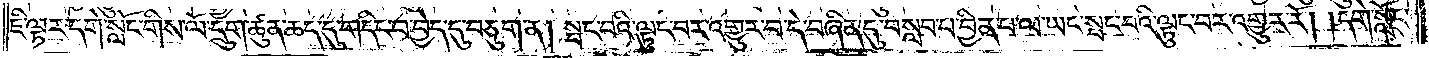ཇི་ལྟར་དགེ་སློང་གིས་ལོ་དྲུག་ཚུན་ཆད་དུ་གདིང་བ་བྱེད་དུ་བཅུག་ན། སྤང་བའི་ལྟུང་བར་འགྱུར་བ་དེ་བཞིན་དུ་བསླབ་པ་བྱིན་པ་ལ་ཡང་སྤང་བའི་ལྟུང་བར་འགྱུར་རོ། །དགེ་སློང་
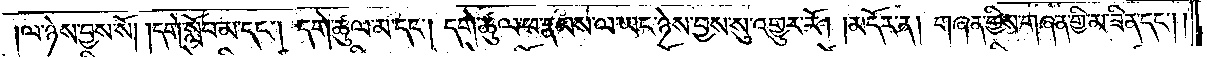།ལ་ཉེས་བྱས་སོ། །དགེ་སློབ་མ་དང༌། དགེ་ཚུལ་མ་དང༌། དགེ་ཚུལ་ཕ་རྣམས་ལ་ཡང་ཉེས་བྱས་སུ་འགྱུར་རོ། །མདོར་ན། གཞན་གྱིས་གཞན་གྱི་མ་ཟིན་དང༌༎
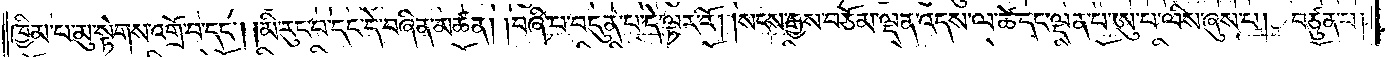ཁྱིམ་པ་མུ་སྟེགས་འགྲོ་བ་དང༌། །མི་རུང་བ་དང་དེ་བཞིན་མཚན། །བཞི་པ་བདུན་པ་དེ་ལྟར་རོ། །སངས་རྒྱས་བཅོམ་ལྡན་འདས་ལ་ཚེ་དང་ལྡན་པ་ཨུ་པ་ལིས་ཞུས་པ། བཙུན་པ།
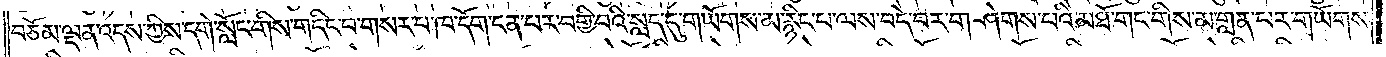བཅོམ་ལྡན་འདས་ཀྱིས་དགེ་སློང་གིས་གདིང་བ་གསར་པ་ཁ་དོག་ངན་པར་བགྱི་བའི་སླད་དུ་གཡོགས་མ་རྙིང་པ་ལས་བདེ་བར་གཤེགས་པའི་མཐོ་གང་གིས་མ་གླན་པར་གཡོགས་
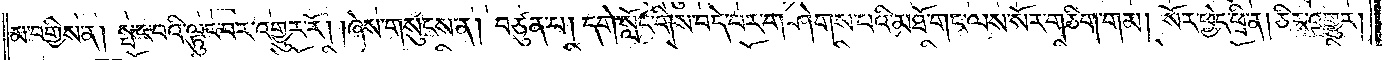མ་བགྱིས་ན། སྤང་བའི་ལྟུང་བར་འགྱུར་རོ། །ཞེས་གསུངས་ན། བཙུན་པ། དགེ་སློང་གིས་བདེ་བར་གཤེགས་པའི་མཐོ་གང་ལས་སོར་གཅིག་གམ། སོར་ཕྱེད་ཕྲི་ན། །ཅིར་འགྱུར།
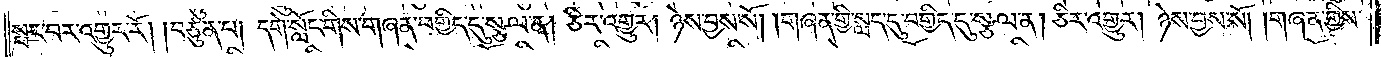སྤང་བར་འགྱུར་རོ། །བཙུན་པ། དགེ་སློང་གིས་གཞན་བགྱིད་དུ་སྩལ་ན། ཅིར་འགྱུར། ཉེས་བྱས་སོ། །གཞན་གྱི་སླད་དུ་བགྱིད་དུ་སྩལ་ན། ཅིར་འགྱུར། ཉེས་བྱས་སོ། །གཞན་གྱིས་
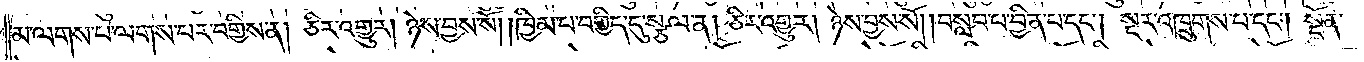མ་ལགས་པ་ལགས་པར་བགྱིས་ན། ཅིར་འགྱུར། ཉེས་བྱས་སོ། །ཁྱིམ་པ་བགྱིད་དུ་སྩལ་ན། ཅིར་འགྱུར། ཉེས་བྱས་སོ། །བསླབ་པ་བྱིན་པ་དང༌། སྔར་འཁྲུགས་པ་དང༌། སྔོན་
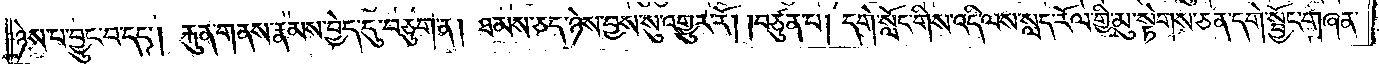ཉེས་པ་བྱུང་བ་དང༌། རྐུན་གནས་རྣམས་བྱེད་དུ་བཅུག་ན། ཐམས་ཅད་ཉེས་བྱས་སུ་འགྱུར་རོ། །བཙུན་པ། དགེ་སློང་གིས་འདི་ལས་སླད་རོལ་གྱི་མུ་སྟེགས་ཅན་དགེ་སྦྱོང་གཞན་
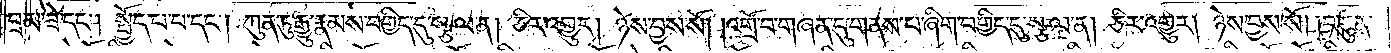བྲམ་ཟེ་དང༌། སྤྱོད་པ་པ་དང༌། ཀུན་ཏུ་རྒྱུ་རྣམས་བགྱིད་དུ་སྩལ་ན། ཅིར་འགྱུར། ཉེས་བྱས་སོ། །འགྲོ་བ་གཞན་དུ་གནས་པ་ཞིག་བགྱིད་དུ་སྩལ་ན། ཅིར་འགྱུར། ཉེས་བྱས་སོ། །བཙུན་
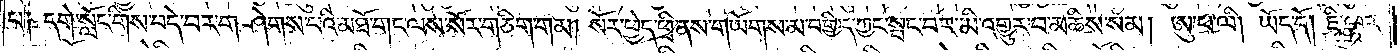པ༑ དགེ་སློང་གིས་བདེ་བར་གཤེགས་པའི་མཐོ་གང་ལས་སོར་གཅིག་གམ། སོར་ཕྱེད་ཕྲི་ནས་གཡོགས་མ་བགྱིད་ཀྱང་སྤང་བར་མི་འགྱུར་བ་མཆིས་སམ། ཨུ་པ་ལི། ཡོད་དོ། ཇི་ལྟར་
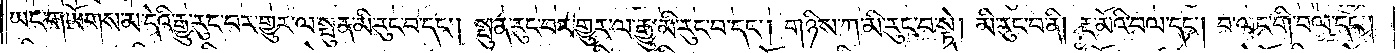ཡང་གཡོགས་མ་དེའི་རྒྱུ་རུང་བར་གྱུར་ལ་སྤུན་མི་རུང་བ་དང༌། སྤུན་རུང་བར་གྱུར་ལ་རྒྱུ་མི་རུང་བ་དང༌། གཉིས་ཀ་མི་རུང་བ་སྟེ། མི་རུང་བ་ནི། རྔ་མོའི་བལ་དང༌། བ་ལང་གི་བལ་དང༌།
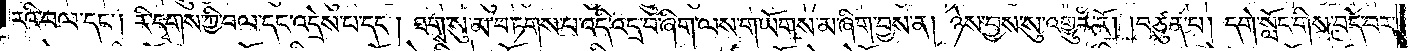རའི་བལ་དང༌། རི་དྭགས་ཀྱི་བལ་དང་འདྲེས་པ་དང༌། ཐགས་སུ་མ་བཏགས་པ་འདི་འདྲ་བ་ཞིག་ལས་གཡོགས་མ་ཞིག་བྱས་ན། ཉེས་བྱས་སུ་འགྱུར་རོ། །བཙུན་པ། དགེ་སློང་གིས་བདེ་བར་
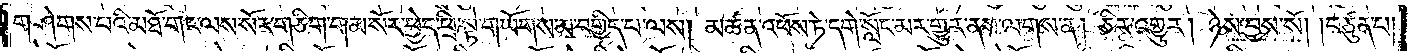གཤེགས་པའི་མཐོ་གང་ལས་སོར་གཅིག་གམ་སོར་ཕྱེད་ཕྲི་སྟེ་གཡོགས་མ་བགྱིད་པ་ལས། མཚན་འཕོས་ཏེ་དགེ་སློང་མར་གྱུར་ནས་ལགས་ན། ཅིར་འགྱུར། ཉེས་བྱས་སོ། །བཙུན་པ།
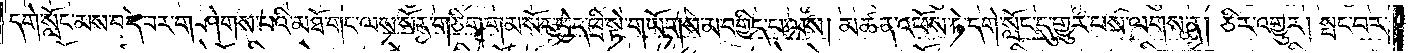དགེ་སློང་མས་བདེ་བར་གཤེགས་པའི་མཐོ་གང་ལས་སོར་གཅིག་གམ་སོར་ཕྱེད་ཕྲི་སྟེ་གཡོགས་མ་བགྱིད་པ་ལས། མཚན་འཕོས་ཏེ་དགེ་སློང་དུ་གྱུར་པས་ལགས་ན། ཅིར་འགྱུར། སྤང་བར་
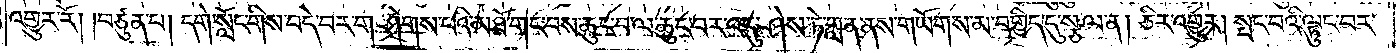འགྱུར་རོ། །བཙུན་པ། དགེ་སློང་གིས་བདེ་བར་གཤེགས་པའི་མཐོ་གང་བས་ཆུང་བ་ལ་ཆུང་བར་འདུ་ཤེས་ཏེ་གླན་ནས་གཡོགས་མ་བགྱིད་དུ་སྩལ་ན། ཅིར་འགྱུར། སྤང་བའི་ལྟུང་བར་
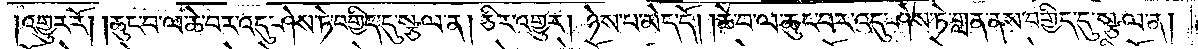འགྱུར་རོ། །ཆུང་བ་ལ་ཆེ་བར་འདུ་ཤེས་ཏེ་བགྱིད་དུ་སྩལ་ན། ཅིར་འགྱུར། ཉེས་པ་མེད་དོ། །ཆེ་བ་ལ་ཆུང་བར་འདུ་ཤེས་ཏེ་གླན་ནས་བགྱིད་དུ་སྩལ་ན།
